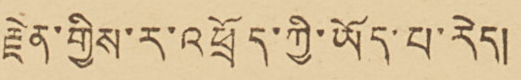རྗེན་གྱིས་ར་འཕྲོད་ཀྱི་ཡོད་པ་རེད།
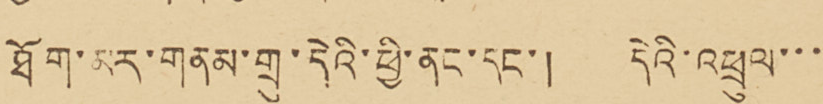ཐོག་མར་གནམ་གྲུ་དེའི་ཕྱི་ནང་དང་། དེའི་འཕྲུལ་་་་
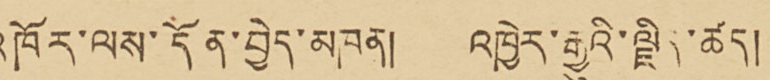འཁོར་ལས་དོན་བྱེད་མཁན། འཁྱེར་རྒྱུའི་ལྗིད་ཚད།
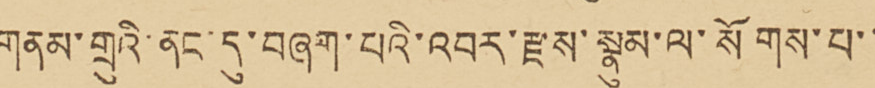གནམ་གྲུའི་ནང་དུ་བཞག་པའི་འབར་རྫས་སྣུམ་ལ་སོགས་པ་་་
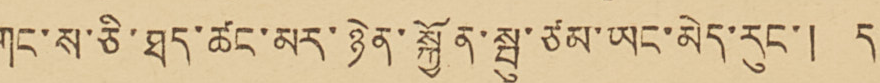གང་ས་ཅི་ཐད་ཚང་མར་ཉེན་སྐྱོན་སྤུ་ཙམ་ཡང་མེད་རུང་། ད་
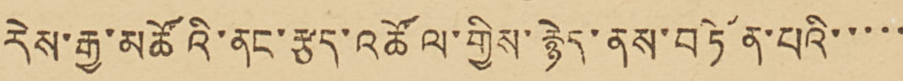རེས་རྒྱ་མཚོའི་ནང་རྩད་འཚོལ་གྱིས་རྙེད་ནས་བཏོན་པའི་་་་་
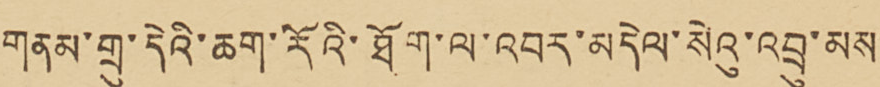གནམ་གྲུ་དེའི་ཆག་རོའི་ཐོག་ལ་འབར་མདེལ་སེའུ་འབྲུ་མས་་
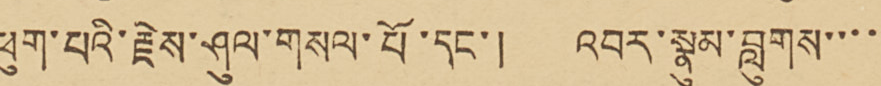ཕུག་པའི་རྗེས་ཤུལ་གསལ་པོ་དང་། འབར་སྣུམ་བླུགས་་་་་
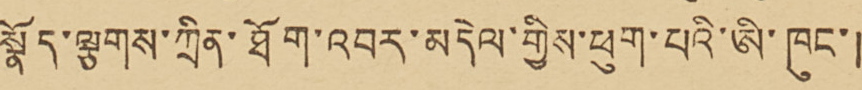སྣོད་ལྕགས་ཀྲིན་ཐོག་འབར་མདེམ་གྱིས་ཕུག་པའི་ཨི་ཁུང་།
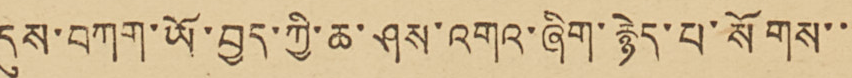དུས་བཀག་ཡོ་བྱད་ཀྱི་ཆ་ཤས་འགའ་ཞིག་རྙེད་པ་སོགས་་་
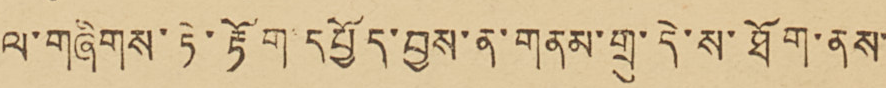ལ་གཞིགས་ཏེ་རྟོག་དཔྱོད་བྱས་ན་གནམ་གྲུ་དེ་ས་ཐོག་ནས་་
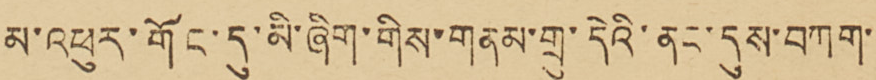མ་འཕུར་གོང་དུ་མི་ཞིག་གིས་གནམ་གྲུ་དེའི་ནང་དུས་བཀག་་་
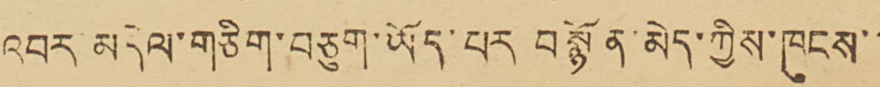འབར་མདེལ་གཅིག་བཅུག་ཡོད་པར བསྙོན་མེད་ཀྱིས་ཁུངས་་་
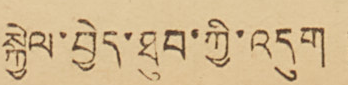སྐྱེལ་བྱེད་ཐུབ་ཀྱི་འདུག །
